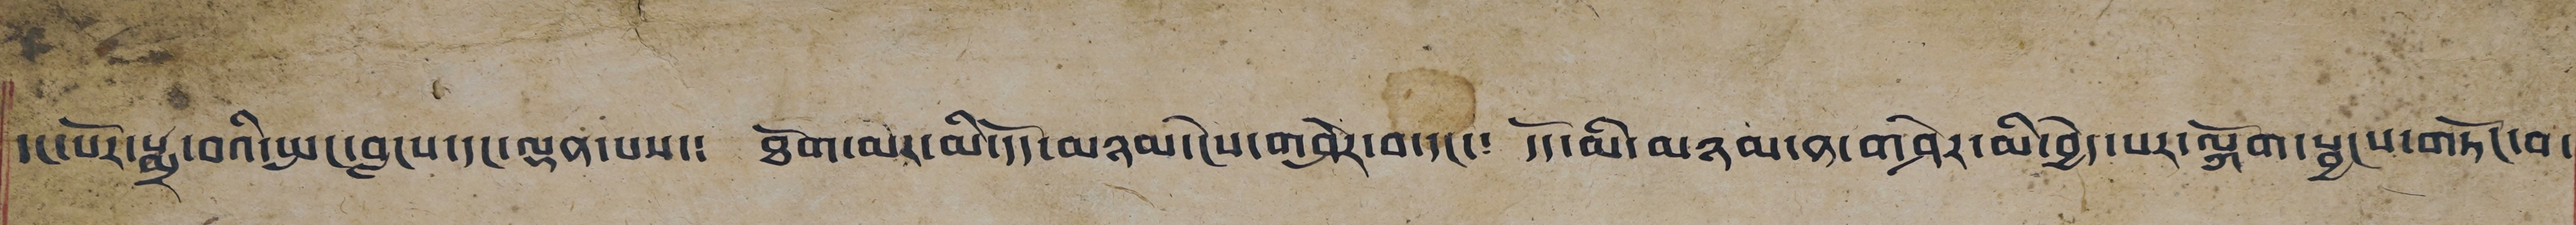དང་སོར་སྨྲ་བའི་སྤང་བླངས་དང་ལྡན་པས་༴ ཐོག་མར་མི་འདོད་མཉམ་ངེས་གཤེར་བ་དང་༴ དོད་མི་མཉམ་ན་གཤེར་མི་བྱེད་པར་སྐོག་སྦྱངས་གཏོང་བ་
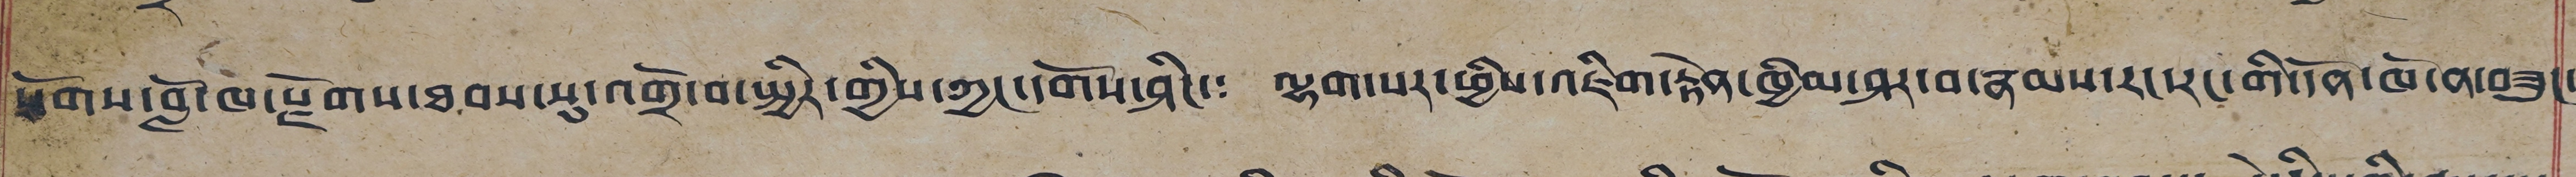སོགས་བློ་ཁ་རྫོགས་ཐབས་སུ་འགྲོ་བ་སྤྱིར་གྱིས་ཀྱང་དགོས་ཤིང་༴ ལྷག་པར་ཕྱིས་འཇིག་རྟེན་ཁྱིམ་ཤར་བ་རྣམས་རང་རང་གི་དོན་ཁོ་ན་བཟུང་
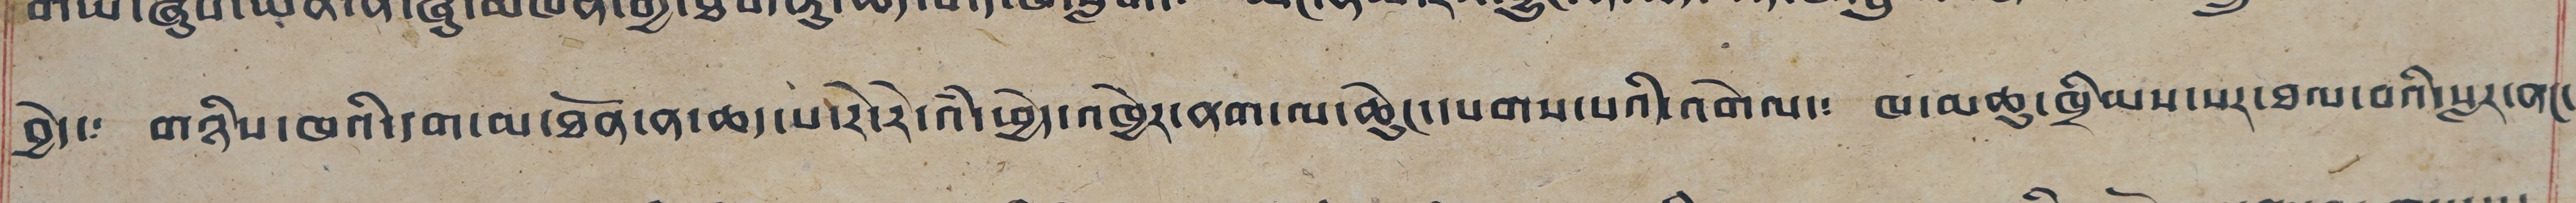བྱེད་༴ གཉིས་ཁའི་དག་མ་ཐོན་ན་ཆད་པ་རེ་རེ་འཾ་ཕྱེད་འཁྱེར་ནག་ལ་ཆེུང་དཔགས་པའི་འགེལ་༴ ཁ་མཆུ་ཁྲིམས་པར་ཐལ་བའི་སླར་ནང་
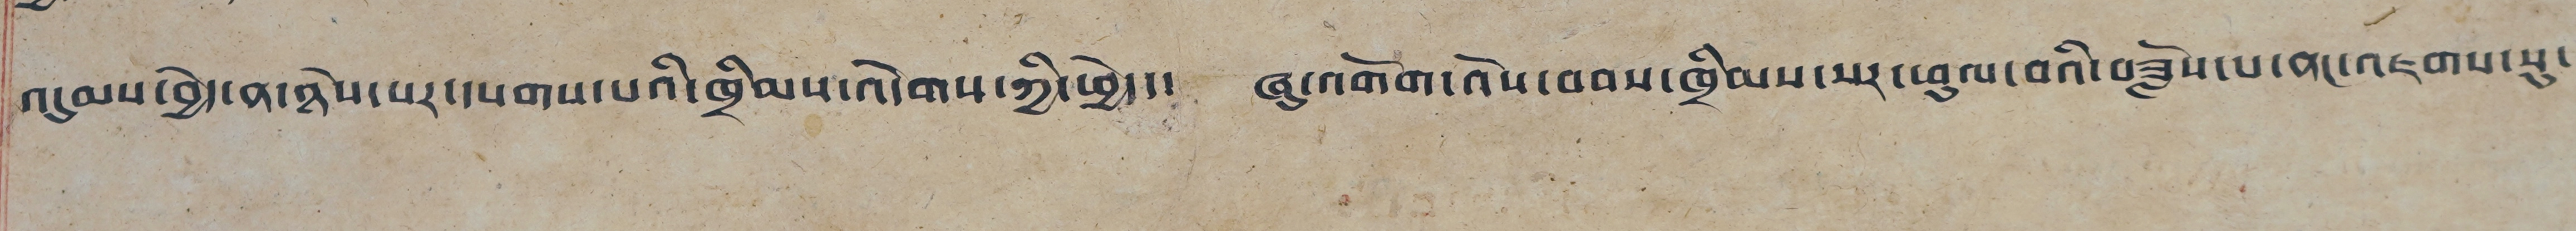འདུམས་བྱེད་ན་ཉེས་པར་དཔགས་པའི་ཁྲིམས་འདེགས་ཀྱི་ཕྱེད་༴ ཞུ་འགོག་འོས་བབས་ཁྲིམས་པར་ཕུལ་བའི་བཟློས་པ་ནང་འཇགས་སུ་
